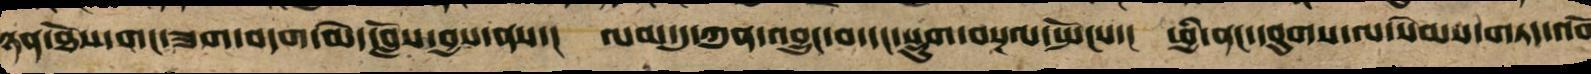ཉན་ཐོས་གང་ཟག་བདག་མེད་བློས་བྱས་ནས་།   ལམ་དུ་ཀུན་འབྱུང་བ་དང་སྡུག་བསྔལ་སྤོངས་།   ཕྱི་ནང་དབུགས་ལ་སེམས་གཏད་འབ
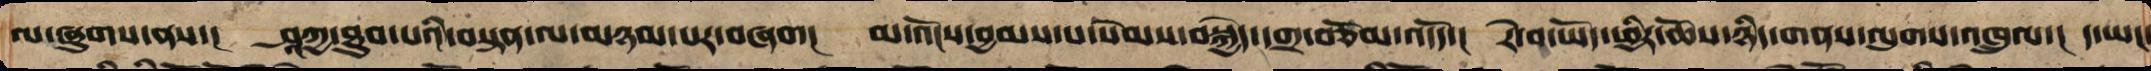ལ་ཞུགས་ནས་། ཤཱཀྱ་ཐུབ་པའི་བསྟན་ལ་མཉམ་པར་བཞག། མ་འོངས་བྱམས་པར་སེམས་བསྐྱེད་དགྲ་བཅོམ་འདོད་། རེ་བ་ཡོད་ཕྱིར་ཆོས་ཉིད་གནས་ལུགས་འཁྲུལ་། ད་ཡང་
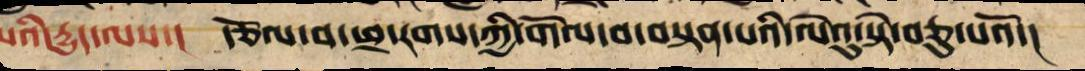པའི་རྒྱུད་ལས་།   རྩོལ་བ་ཕྲ་རགས་ཀྱི་གོལ་བ་བསྟན་པའི་ལེའུ་སྟེ་བཅུ་པའོ་།
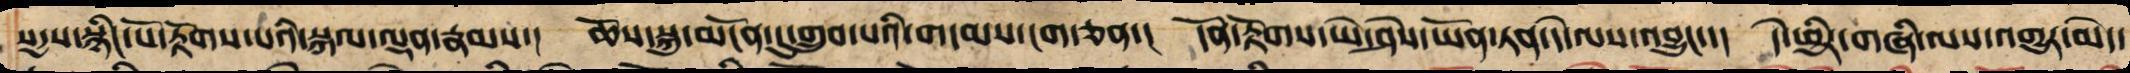སདྱས་སྙིང་པོ་རྟོགས་པའི་སྐལ་ལྡན་རྣམས་།   ཆོས་སྐུ་མངོན་དུ་གྲུབ་པའི་གདམས་ངག་ཅན་།   དོན་རྟོགས་ཡེ་ཤེས་ཡོན་ཏན་དེ་ལས་བྱུང་་།   དེ་ཕྱིར་གཞི་ལས་འགྱུར་མེད་
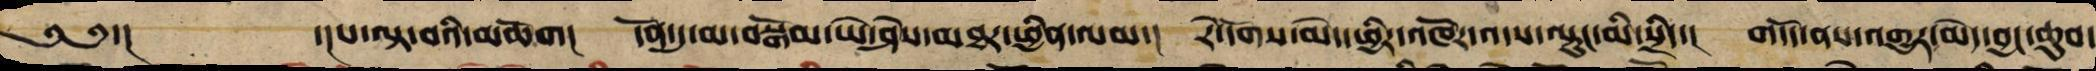༄༅་། ་།པ་ལྟ་བའི་མཆོག། དོན་དུ་མ་བསྒོམས་ཡེ་ཤེས་མཐར་ཕྱིན་ལམ་། རེ་དོགས་མེད་ཕྱིར་འཁོར་འདས་ལྷུང་མི་སྲིད་། གདོད་ནས་འགྱུར་མེད་བྱང་ཆུབ་
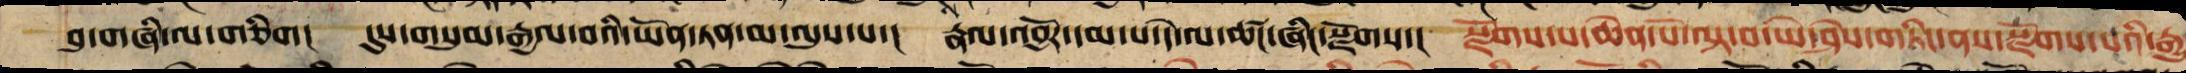བུ་གཞི་ལ་གཅིག།   དུས་གསུམ་རྒྱལ་བའི་ཡོན་ཏན་མ་ལུས་པ་།   རྣལ་འབྱོར་དམ་པ་དེ་ལ་ཚང་ཞིང་སྫོགས་།   སྫོགས་པ་ཆེན་པོ་ལྟ་བ་ཡེ་ཤེས་གཏིང་ནས་སྫོགས་པའི་རྒྱུ
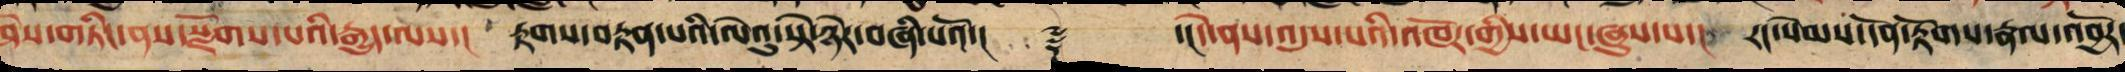ཤེས་གཏིང་ནས་སྫོགས་པའི་རྒྱུད་ལས་།   རྟགས་བསྟན་པའི་ལེའུ་སྟེ་ཉེར་བཞི་པའོ་།།     ༈      ་།དེ་ནས་འདུས་པའི་འཁོར་གྱིས་ཡང་ཞུས་པ་།   རང་སེམས་དོན་རྟོགས་རྣལ་འབྱོར་
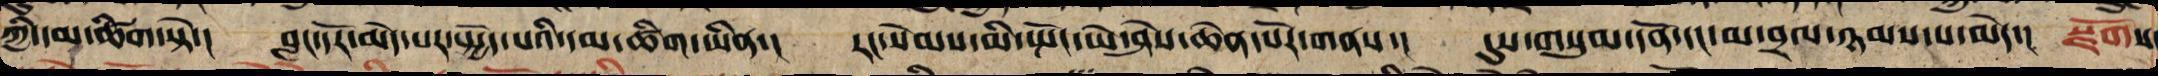ཀྱི་དམ་ཚིག་སྟེ་།   བླང་དོར་མེད་པར་སྤྱོད་པའི་དམ་ཚིག་ཡིན་།   རང་སེམས་མི་སྤོང་ཡེ་ཤེས་ཆེན་པོར་གནས་།   དུས་གསུམ་དོན་དང་མ་བྲལ་ཉམས་པ་མེད།   སྫོགས་
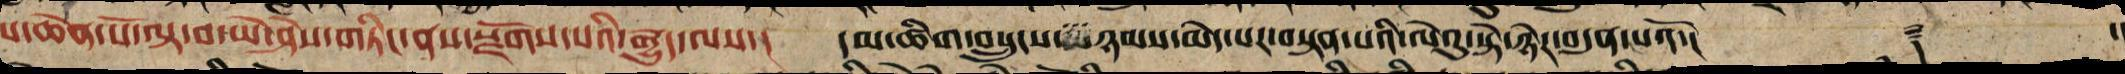པ་ཆེན་པོ་ལྟ་བ་ཡེ་ཤེས་གཏིང་ནས་སྫོགས་པའི་རྒྱུད་ལས་།   དམ་ཚིག་བསྲུངས་ཉམས་མེད་པར་བསྟན་པའི་ལེའུ་སྟེ་ཉེར་བདུན་པའོ་།།       ༈       ་
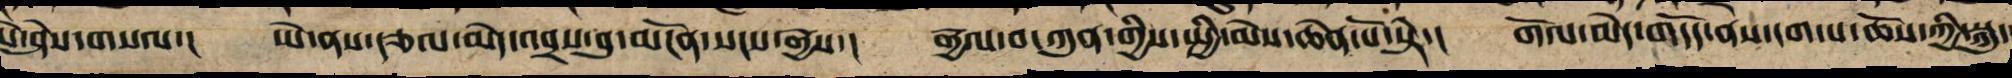ཡེ་ཤེས་གསལ་།   ཡེ་ནས་རྩལ་མེད་འབྲས་བུ་མངོན་སངས་རྒྱས་།   རྒྱལ་བ་ཀུན་གྱིས་སྤྱི་མེས་ཆེན་པོ་སྟེ་།   གོལ་མེད་གདོད་ནས་དག་པ་ཆོས་ཀྱི་སྐུ་
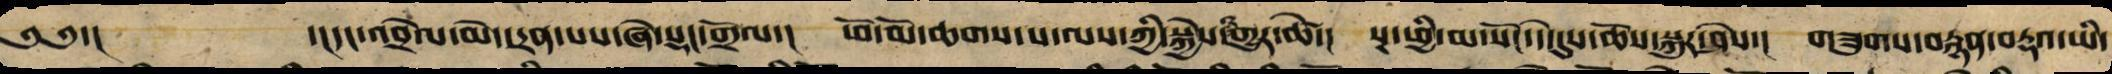༄༅་།      ་།དང་འབྲེལ་མེད་དྲན་པས་ཞེ་སྡང་གྲོལ་།   ཕོ་མོ་ཆགས་པ་ལས་ཀྱིས་སྐྱེ་གྱུར་ཚེ་།   སྔ་ཕྱི་མ་སོང་དེ་དུས་ཆོས་སྐུར་ཤེས་།   གཟུགས་བརྙན་བརྡའ་ཡི་
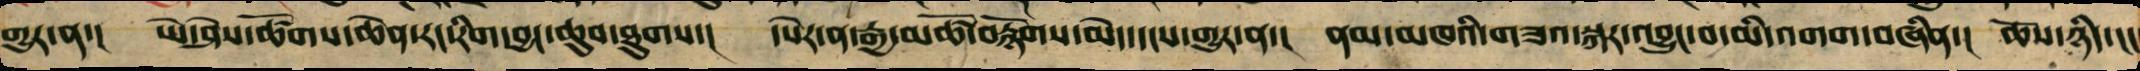གྱུར་ན་།   ཡེ་ཤེས་ཚོགས་ཆེན་རང་རིག་བྱང་ཆུབ་ཐུགས་།   དཔེར་ན་རྒྱ་མཚོ་བརྙོགས་མེད་དངས་གྱུར་ན་།   ནམ་མཁའི་གཟའ་སྐར་འབྱུང་བ་མི་འགག་བཞིན་།   ཆོས་ཉིད་ངང
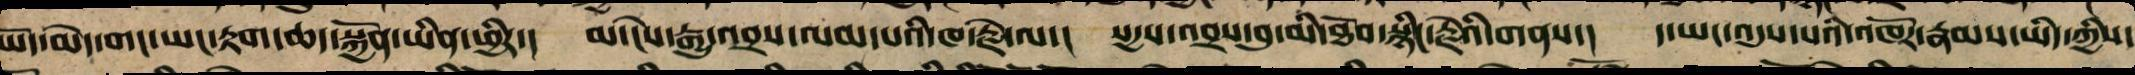ཡོད་མེད་གང་ཡང་རྟག་ཆད་སྐྱོན་ཡིན་ཕྱིར་། མ་ངེས་རྒྱུ་འབྲས་ལམ་པའི་ཁ་རྗེ་ལ་། སངས་རྒྱས་འབྲས་བུ་མི་ཐོབ་སྙིང་རྗེའི་གནས་། ད་ཡང་འདུས་པའི་འཁོར་རྣམས་ཡིད་ཀྱིས་
